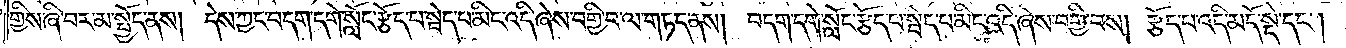གྱིས་ཞི་བར་མ་སྤྱོད་ནས། དེས་ཀྱང་བདག་དགེ་སློང་རྩོད་པ་སྦེད་པ་མིང་འདི་ཞེས་བགྱི་བ་ལ་གཏད་ནས། བདག་དགེ་སློང་རྩོད་པ་སྦེད་པ་མིང་འདི་ཞེས་བགྱི་བས། རྩོད་པ་འདི་མདོ་སྡེ་དང༌།
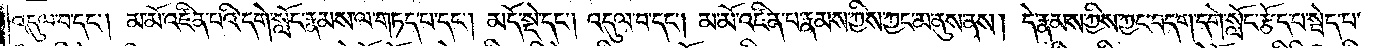འདུལ་བ་དང༌། མ་མོ་འཛིན་པའི་དགེ་སློང་རྣམས་ལ་གཏད་པ་དང༌། མདོ་སྡེ་དང༌། འདུལ་བ་དང༌། མ་མོ་འཛིན་པ་རྣམས་ཀྱིས་ཀྱང་མ་ནུས་ནས། དེ་རྣམས་ཀྱིས་ཀྱང་བདག་དགེ་སློང་རྩོད་པ་སྦེད་པ་
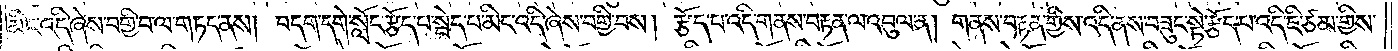མིང་འདི་ཞེས་བགྱི་བ་ལ་གཏད་ནས། བདག་དགེ་སློང་རྩོད་པ་སྦེད་པ་མིང་འདི་ཞེས་བགྱི་བས། རྩོད་པ་འདི་གནས་བརྟན་ལ་འབུལ་ན། གནས་བརྟན་གྱིས་འདི་ནས་བཟུང་སྟེ་རྩོད་པ་འདི་ཇི་ཙམ་གྱིས་
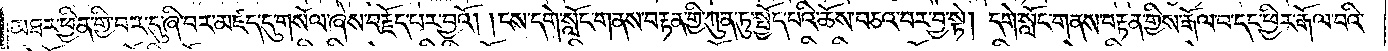མཐར་ཕྱིན་གྱི་བར་དུ་ཞི་བར་མཛད་དུ་གསོལ་ཞེས་བརྗོད་པར་བྱའོ། །ངས་དགེ་སློང་གནས་བརྟན་གྱི་ཀུན་ཏུ་སྤྱོད་པའི་ཆོས་བཅའ་བར་བྱ་སྟེ། དགེ་སློང་གནས་བརྟན་གྱིས་རྒོལ་བ་དང་ཕྱིར་རྒོལ་བའི་
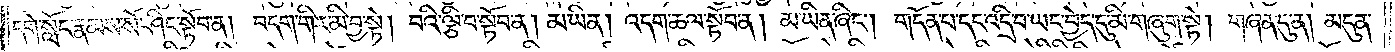དགེ་སློང་རྣམས་སོ་ཤིང་སྟོབ་ན། བདག་གིར་མི་བྱ་སྟེ། བའི་ལྕི་བ་སྟོབ་ན། མ་ཡིན། འདག་ཆལ་སྟོབ་ན། མ་ཡིན་ཞིང༌། གདོན་པ་དང་འདྲི་བ་ཡང་བྱེད་དུ་མི་གཞུག་སྟེ། གཞན་དུ་ན། མདུན་
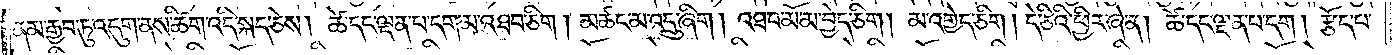ནམ་རྒྱབ་ཏུ་འདུག་ནས་ཚིག་འདི་སྐད་ཅེས། ཚེ་དང་ལྡན་པ་དག་མ་འཐབ་ཅིག །མཚང་མ་འདྲུ་ཞིག །འཐབ་མོ་མ་བྱེད་ཅིག །མ་འགྱེད་ཅིག །དེ་ཅིའི་ཕྱིར་ཞེ་ན། ཚེ་དང་ལྡན་པ་དག །རྩོད་པ་
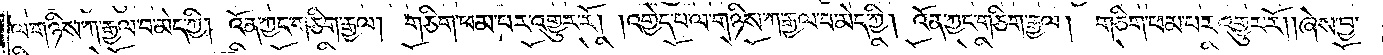ལ་གཉིས་ཀ་རྒྱལ་བ་མེད་ཀྱི། འོན་ཀྱང་གཅིག་རྒྱལ། གཅིག་ཕམ་པར་འགྱུར་རོ། །འགྱེད་པ་ལ་གཉིས་ཀ་རྒྱལ་བ་མེད་ཀྱི། འོན་ཀྱང་གཅིག་རྒྱལ། གཅིག་ཕམ་པར་འགྱུར་རོ། །ཞེས་བྱ་
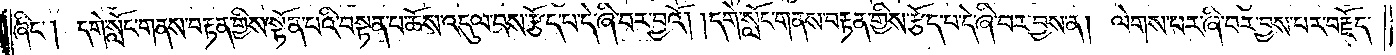ཞིང༌། དགེ་སློང་གནས་བརྟན་གྱིས་སྟོན་པའི་བསྟན་པ་ཆོས་འདུལ་བས་རྩོད་པ་དེ་ཞི་བར་བྱའོ། །དགེ་སློང་གནས་བརྟན་གྱིས་རྩོད་པ་དེ་ཞི་བར་བྱས་ན། ལེགས་པར་ཞི་བར་བྱས་པར་བརྗོད་
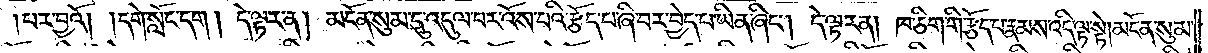པར་བྱའོ། །དགེ་སློང་དག །དེ་ལྟར་ན། མངོན་སུམ་དུ་འདུལ་བར་འོས་པའི་རྩོད་པ་ཞི་བར་བྱེད་པ་ཡིན་ཞིང༌། དེ་ལྟར་ན། ཁ་ཅིག་གི་རྩོད་པ་རྣམས་འདི་ལྟ་སྟེ། མངོན་སུམ་
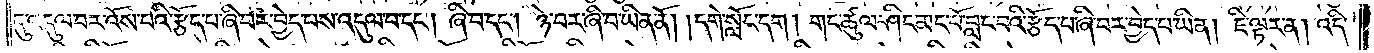དུ་འདུལ་བར་འོས་པའི་རྩོད་པ་ཞི་བར་བྱེད་པས་འདུལ་བ་དང༌། ཞི་བ་དང༌། ཉེ་བར་ཞི་བ་ཡིན་ནོ། །དགེ་སློང་དག །གང་ཚུལ་ཤིང་མང་པོ་བླང་བའི་རྩོད་པ་ཞི་བར་བྱེད་པ་ཡིན། ཇི་ལྟར་ན། འདི་
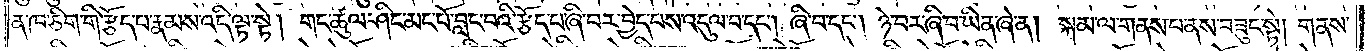ན་ཁ་ཅིག་གི་རྩོད་པ་རྣམས་འདི་ལྟ་སྟེ། གང་ཚུལ་ཤིང་མང་པོ་བླང་བའི་རྩོད་པ་ཞི་བར་བྱེད་པས་འདུལ་བ་དང༌། ཞི་བ་དང༌། ཉེ་བར་ཞི་བ་ཡིན་ཞེ་ན། སྐམ་ལ་གནས་པ་ནས་བཟུང་སྟེ། གནས་
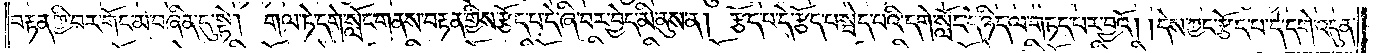བརྟན་གྱི་བར་གོང་མ་བཞིན་དུ་སྟེ། གལ་ཏེ་དགེ་སློང་གནས་བརྟན་གྱིས་རྩོད་པ་དེ་ཞི་བར་བྱེད་མི་ནུས་ན། རྩོད་པ་དེ་རྩོད་པ་སྦེད་པའི་དགེ་སློང་དེ་ཉིད་ལ་གཏད་པར་བྱའོ། །དེས་ཀྱང་རྩོད་པ་དེ་དགེ་འདུན་
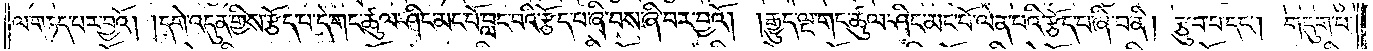ལ་གཏད་པར་བྱའོ། །དགེ་འདུན་གྱིས་རྩོད་པ་དེ་གང་ཚུལ་ཤིང་མང་པོ་བླང་བའི་རྩོད་པ་ཞི་བས་ཞི་བར་བྱའོ། །རྒྱུད་ལྔ་གང་ཚུལ་ཤིང་མང་པོ་ལེན་པའི་རྩོད་པ་ཞི་བ་ནི། རྩུབ་པ་དང༌། གདུག་པ་
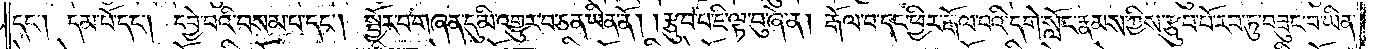དང༌། དམ་པོ་དང༌། དབྱེ་བའི་བསམ་པ་དང༌། སྦྱོར་བ་གཞན་དུ་མི་འགྱུར་པ་ཅན་ཡིན་ནོ། །རྩུབ་པ་ཇི་ལྟ་བུ་ཞེ་ན། རྒོལ་བ་དང་ཕྱིར་རྒོལ་བའི་དགེ་སློང་རྣམས་ཀྱིས་རྩུབ་པོ་རབ་ཏུ་བཟུང་བ་ཡིན་
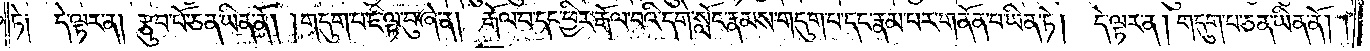ཏེ༑ དེ་ལྟར་ན། རྩུབ་པོ་ཅན་ཡིན་ནོ། །གདུག་པ་ཇི་ལྟ་བུ་ཞེ་ན། རྒོལ་བ་དང་ཕྱིར་རྒོལ་བའི་དགེ་སློང་རྣམས་གདུག་པ་དང་རྣམ་པར་གནོན་པ་ཡིན་ཏེ། དེ་ལྟར་ན། གདུག་པ་ཅན་ཡིན་ནོ། །
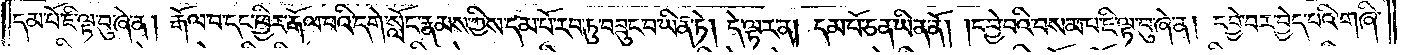དམ་པོ་ཇི་ལྟ་བུ་ཞེ་ན། རྒོལ་བ་དང་ཕྱིར་རྒོལ་བའི་དགེ་སློང་རྣམས་ཀྱིས་དམ་པོ་རབ་ཏུ་བཟུང་བ་ཡིན་ཏེ། དེ་ལྟར་ན། དམ་པོ་ཅན་ཡིན་ནོ། །དབྱེ་བའི་བསམ་པ་ཇི་ལྟ་བུ་ཞེ་ན། དབྱེ་བར་བྱེད་པའི་གཞི་
